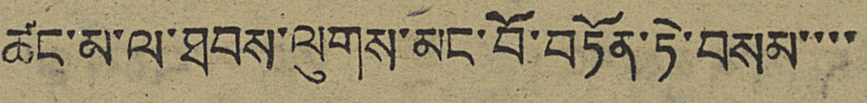ཚང་མ་ལ་ཐབས་ལུགས་མང་བོ་བཏོན་ཏེ་བསམ་་་་
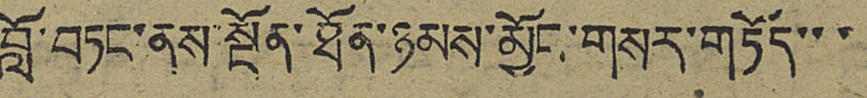བློ་བཏང་ནས་སྔོན་ཐོན་ཉམས་མྱོང་གསར་གཏོད་་་
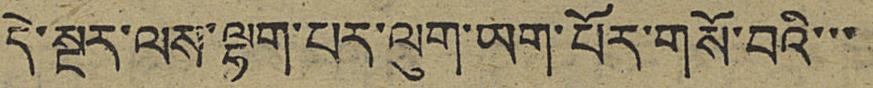དེ་སྔར་ལས་ལྷག་པར་ལུག་ཡག་པོར་གསོ་བའི་་་
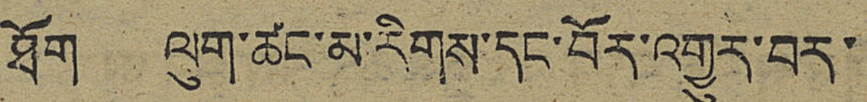ཐོག ལུག་ཚང་མ་རིགས་དང་བོར་འགྱུར་བར་
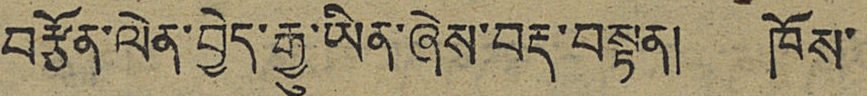བརྩོན་ལེན་བྱེད་རྒྱུ་ཡིན་ཞེས་བརྡ་བསྟན། ཁོས་
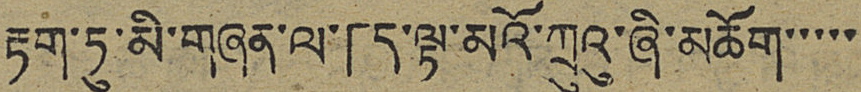རྟག་ཏུ་མི་གཞན་ལ་「ད་ལྟ་མའོ་ཀྲུའུ་ཞི་མཆོག་་་་་
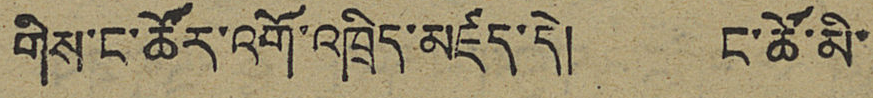གིས་ང་ཚོར་འགོ་འཁྲིད་མཛད་དེ། ང་ཚོ་མི་
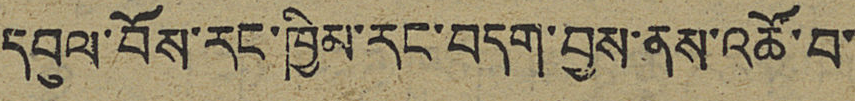དབུལ་བོས་རང་ཁྱིམ་རང་བདག་བྱས་ནས་འཚོ་བ་
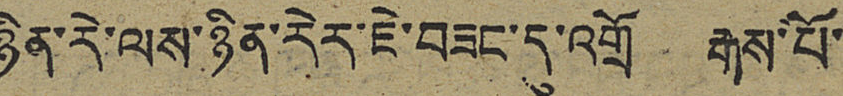ཉིན་རེ་ལས་ཉིན་རེར་ཇེ་བཟང་དུ་འགྲོ རྒས་པོ་
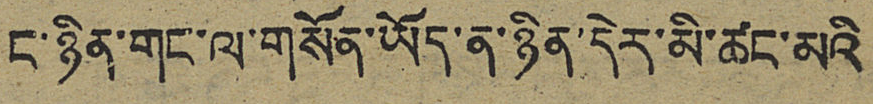ང་ཉིན་གང་ལ་གསོན་ཡོད་ན་ཉིན་དེར་མི་ཚང་མའི་
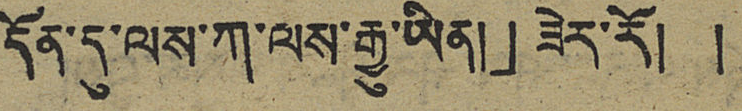དོན་དུ་ལས་ཀ་ལས་རྒྱུ་ཡིན།」ཟེར་རོ། །
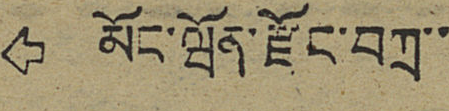⇦ མོང་ཝོན་རྫོང་བཀྲ་་
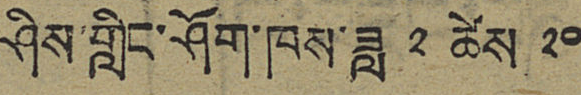ཤིས་གླིང་ཤོག་ཁས་ཟླ ༢ ཚེས ༢༠
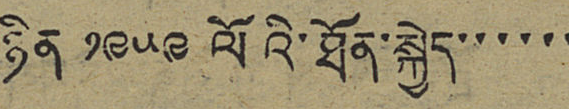ཉིན ༡༩༥༩ ལོའི་ཐོན་སྐྱེད་་་་་་
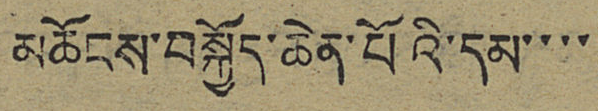མཆོངས་བསྐྱོད་ཆེན་པོའི་དམ་་་་
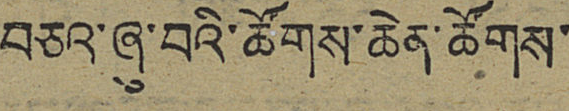བཅའ་ཞུ་བའི་ཚོགས་ཆེན་ཚོགས་
